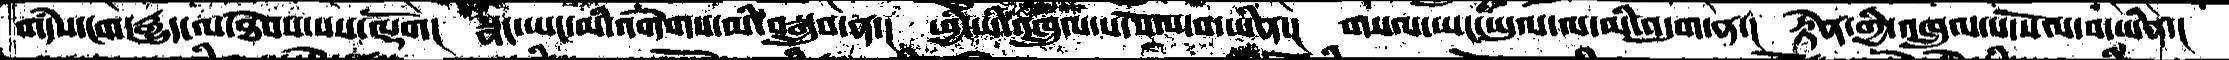གདཾས་ངག་རྒྱུད་ལ་ཐེབས་པས་ལྡོག།  སྣང་ཡང་མི་འགེགས་མི་བསྒྲུབ་ན་།  ཕྱི་ཡིའཁྲུལ་པ་སོལ་བ་ཡིན་།  གསལ་ཡང་ཡུལ་ལ་མི་འདུག་ན་།  རྟེན་གྱི་འཁྲུལ་པ་སོལ་བ་ཡིན་།
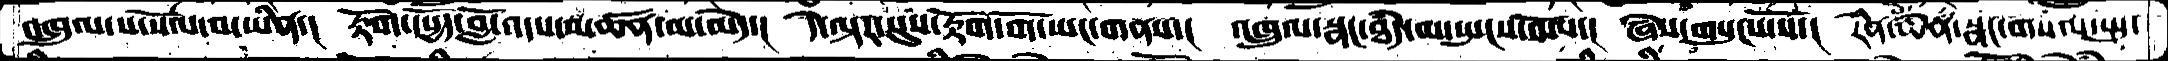འཁྲུལ་པ་སོལ་བ་ཡིན་།  རྟོག་དཔྱོད་བློ་འདས་མཚན་མ་མེད་།  དེ་ལྟར་སུས་རྟོག་གོ་ཡང་གནས་།  འཁྲུལ་སྣང་ཐདཾ་མ་སྤངས་སོལ་།  ཞེས་གསུངས་སོ་།  རིན་ཆེན་སྣང་གསལ་སྤུ་
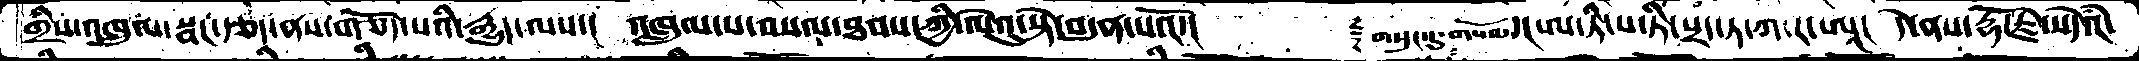གྲིས་འཁྲུལ་སྣང་རྩད་ནས་གཅོད་པའི་རྒྱུད་ལས་།  འཁྲུལ་པ་བསལ་ཐབས་ཀྱི་ལེའུ་སྟེ་བདུན་པའོ་།   ༈གསུང་དུ་གསོལ་།ཨ་ཏི་པ་ཏི་པྲད་ཏ་ཀ་ར་ཨཱ་།  དེ་ནས་རྡོ་རྗེ་སེདཾའ་
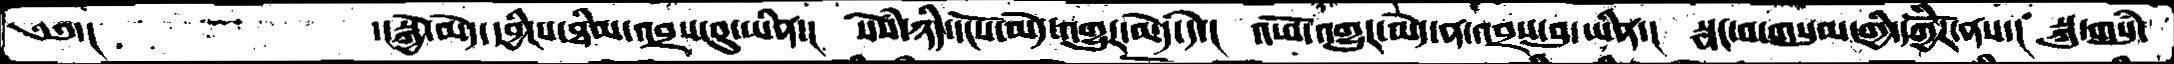༄༅་།     ་།སྐྱེ་མེད་དབྱིངས་ཐིམ་འབྲས་བུ་ཡིན་།  སེཾས་ཉིད་དངོས་མེད་འགྱུར་མེད་དེ་།  འཕོ་འགྱུར་མེད་ན་འབྲས་བུ་ཡིན་།  སྣང་བ་གསུམ་གྱི་དཀྱིོར་ནས་།  སྐུ་གསུཾ་
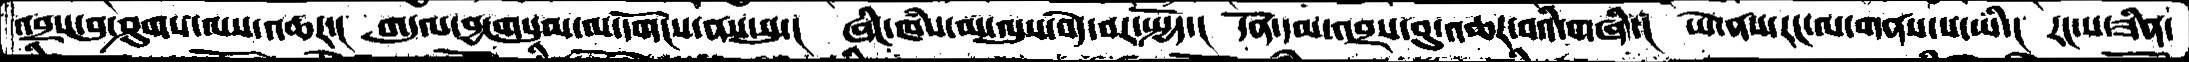འབྲས་བུ་ཤུགས་ལས་འཆར་།  གདུལ་བྱ་གསུམ་ལ་དགོངས་ནས་སུ་།  ཞིང་ཁཾས་མ་ལུས་བདེ་བར་སྤྱོད་།  དོན་ལ་འབྲས་བུ་འཆར་བའི་གཞི་།  ཡེ་ནས་རང་ལ་གནས་པ་ཡི་།  རང་ས་ཟིན་
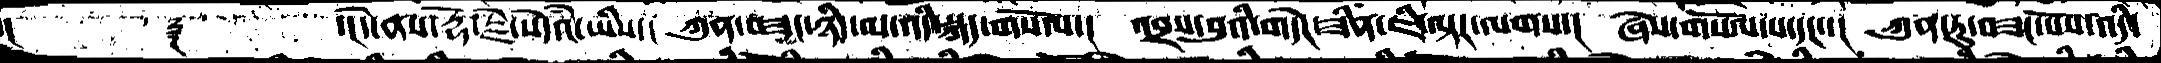་།     ༈     ་།དེ་ནས་རྡོ་རྗེ་སེདཾའ་ཡིས་།  ཀུན་བཟང་ཉི་མ་འདི་སྐད་གསོལ་།  འབྲས་བུའི་གདེང་ཟིན་ཇི་ལྟར་ལགས་།  ཞེས་གསོལ་པ་དང་།  ཀུན་ཏུ་བཟང་པོས་འདི་
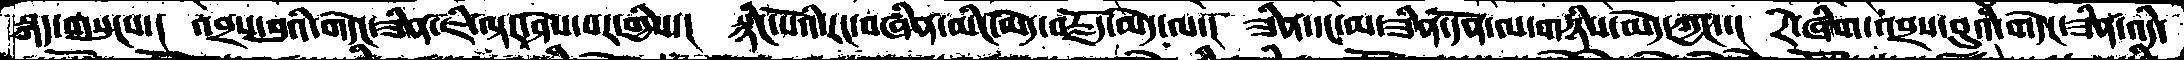སྐད་གསུངས་།  འབྲས་བུའི་གདེང་ཟིན་ཇི་ལྟར་ཤེས་པར་གྱིས་།  སྙིང་པོའི་རང་བཞིན་མིང་མེད་བརྗོད་མེད་ལ་།  ཟིན་དང་མ་ཟིན་དོན་ལ་གཉིས་མེད་ཀྱང་།  རེ་ཞིག་འབྲས་བུའི་གདེང་ཟིན་འདི་
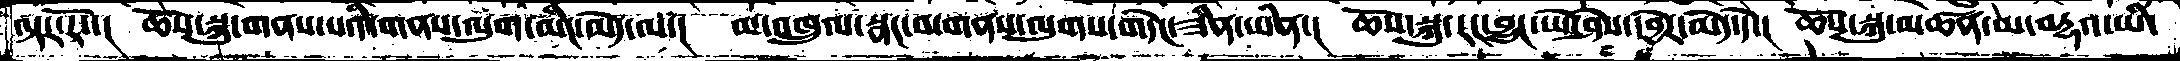ལྟར་རོ་།  ཆོས་སྐུ་གནས་པའི་གནས་ལུག་མིང་མེད་ལ་།  མ་འཁྲུལ་སྣང་བ་གནས་ལུགས་གདེང་ཟིན་ཡིན་།  ཆོས་སྐུ་རང་བྱུང་ཡེ་ཤེས་དབྱེར་མེད་དེ་།  ཆོས་སྐུ་མཚན་མ་བརྡའ་ཡི་
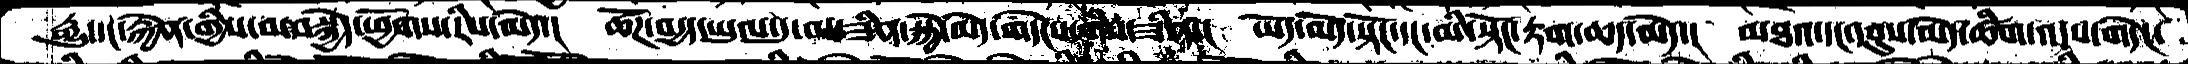རྒྱུ་དང་རྐྱེན་གྱིས་མ་བསྐྱེད་ཕྱོགས་རིས་མེད་།  ཚོཌ་བདྱད་ཡུལ་དུ་མ་ཟིན་སྐྱེ་མེད་གདེངས་གིས་ཟིན་།  ཡོད་མེད་སྟོང་དང་མི་སྟོང་རྟག་ཆད་མེད་།  མཐའ་དང་དབུས་མེད་ཚིག་འདས་གདེང་
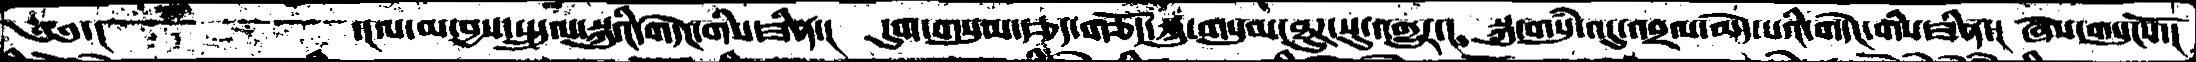༄༅་།    ་།ལ་མ་བྱས་སྤྲུལ་སྐུའི་གདེང་གིས་ཟིན་།  དུག་གསུམ་རྩད་གཅོད་སྐུ་གསུམ་ཐུཌ་སུ་འགྱུར་།  སྐུ་གསུཾ་འདུ་འབྲལ་མེད་པའི་གདེང་གིས་ཟིན་།  ཞེས་གསུངསོ་།
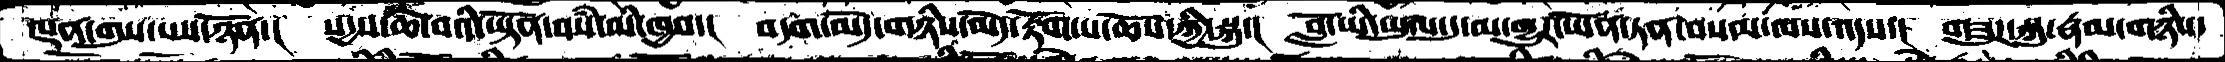ལྡན་གུས་པས་ཉོན་།  སདྱས་ཆེ་བའི་ཡྟོན་བསཾ་མི་ཁྱབ་།  བདག་མེད་གཉིས་མེད་རྟོག་པ་ཆོས་ཀྱི་སྐུ་།  བློ་ཡི་ཡུལ་དུ་མ་གྱུར་ཡོན་ཏན་བསམ་ལས་འདས་།  གཟུཌ་སྐུ་རྣམ་གཉིས་
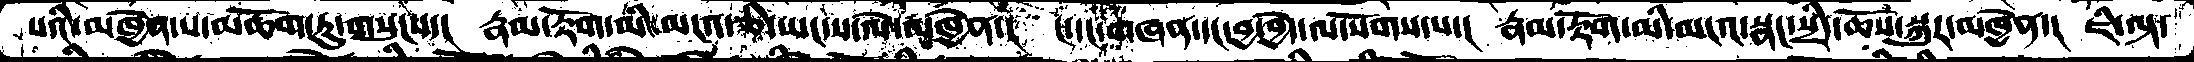པའི་མཁྱེན་པ་མཆོག་ཏུ་གསུངས་།  རྣམ་རྟོག་མི་་མངའ་ཅི་ཡང་ས་ལེ་མཁྱེན་།  ང་དང་གཞན་དང་བྱ་བྱེད་ལ་སོགས་པ་།  རྣམ་རྟོག་མི་མངའ་སྣང་སྲིད་ཆོས་སྐུར་མཁྱེན་།  ཇི་ལྟ་
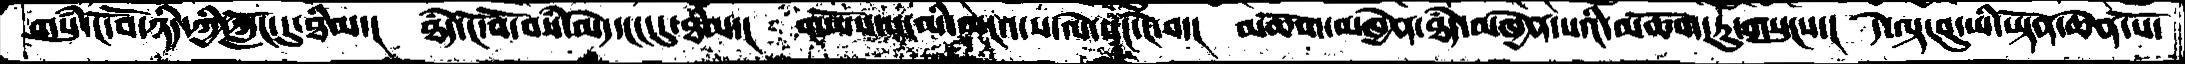གསུཾ་ངོ་བོ་ཉིད་ཀྱི་ཀློང་དུ་ཐིམ་།  ཐཾད་ངོ་བོ་བསཾ་མེད་ངང་དུ་ཐིམ་།  གཡོས་པ་མི་མངའ་ས་ལེ་སང་ངེ་བ་།  མཆོག་མཁྱེན་ཐཾད་མཁྱེན་པའི་མཆོག་ཏུ་གསུངས་།  དེ་ལྟ་བུ་ཡི་ཡྟོན་ཆེན་པོ་
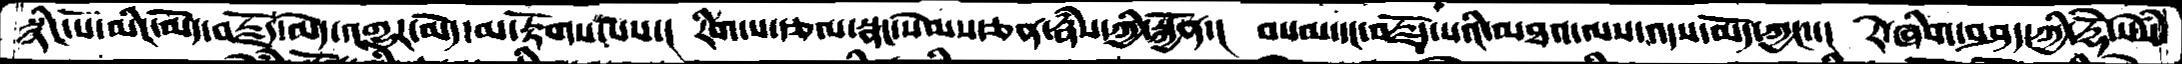སྙིང་པོ་མིང་མེད་བརྗོད་མེད་འགྱུར་མེད་མ་རྟོགས་པས་།  རིག་པ་རྩལ་སྣང་སེམས་ཅན་རྣཾས་ཀྱི་སྐྱོན་།  བསམ་དང་བརྗོད་པའི་མཐའ་ལས་འདས་མོད་ཀྱང་་།  རེ་ཞིག་བཤད་ཀྱི་རྡོེ་སེདཾས་
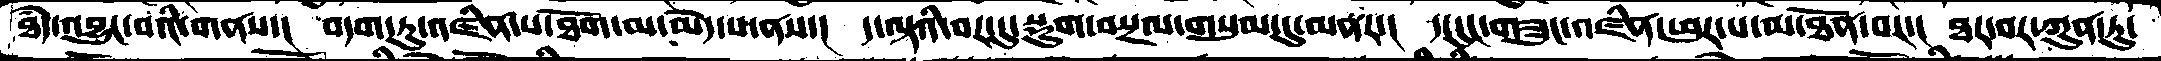ཐདཾ་འབྱུང་བའི་གནས་།  བདག་ཏུ་འཛིན་པ་ཐོག་མ་མེད་པ་ནས་།  ད་ལྟའི་བར་དུ་སྡུག་བསྔལ་གསུམ་དུ་མནར་།  ད་དུང་གཟུང་འཛིན་ཕུར་པ་མ་ཐོན་བར་།  ཐར་བར་ཀུན་ཏུ་
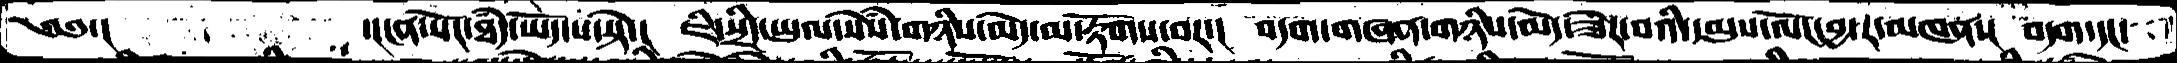༄༅་།       ་།ངན་སོང་ཐདཾ་ཡོད་པ་སྟེ་།  ཇི་སྲིད་ཡུལ་སེཾས་གཉིས་མེད་མ་རྟོགས་བར་།  བདག་གཞན་གཉིས་མེད་ཟེར་བའི་དམུས་ལོང་བྱ་ར་མཁན་།  བདག་དང་
